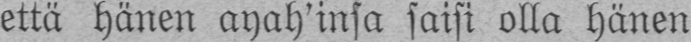että hänen ayah'insa saisi olla hänen
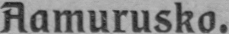Aamurusko.
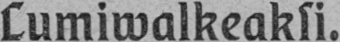Lumiwalkeaksi.
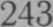243
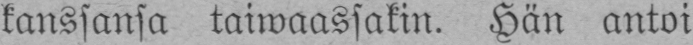kanssansa taiwaassakin. Hän antoi
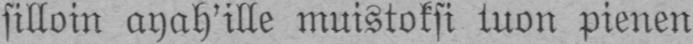silloin ayah'ille muistoksi tuon pienen
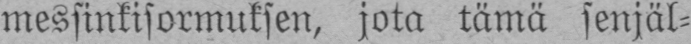messinkisormuksen, jota tämä senjäl-
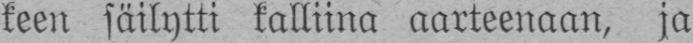keen säilytti kalliina aarteenaan, ja
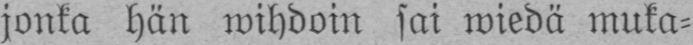jonka hän wihdoin sai wiedä muka-
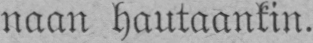naan hautaankin.
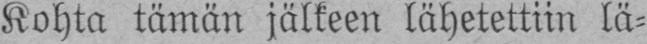Kohta tämän jälkeen lähetettiin lä-
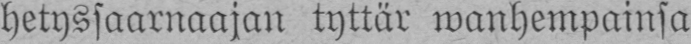hetyssaarnaajan tyttär wanhempainsa
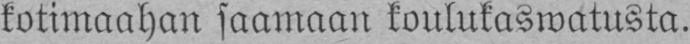kotimaahan saamaan koulukaswatusta.
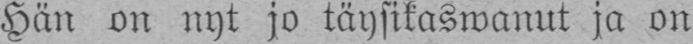Hän on nyt jo täysikaswanut ja on
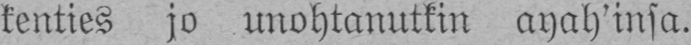kenties jo unohtanutkin ayah'insa.
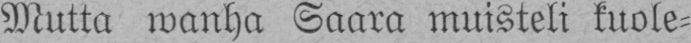Mutta wanha Saara muisteli kuole-
